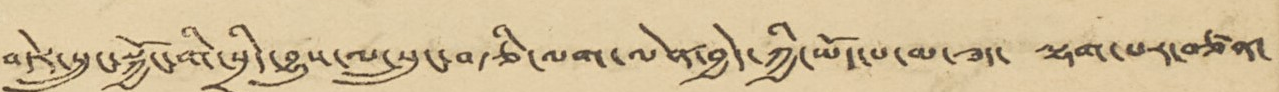བདེར་སྲུང་སྐྱོང་གི་སྲིད་བྱུས་ལ་སྲུང་བརྩི་ལག་ལེན་བྱེད་ཀྱི་ཡོད་པ་མ་ཟད་ ལྷག་པར་བཙན་
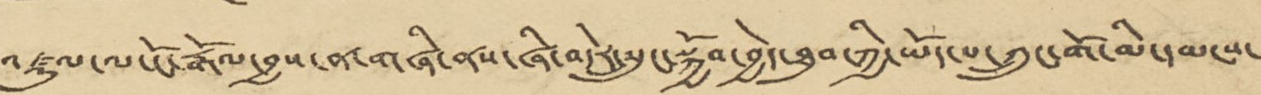འཛུལ་ལ་ངོ་རྒོལ་བྱས་ན་གཞི་ནས་ཞི་བདེར་སྲུང་སྐྱོབ་བྱེད་ཐུབ་ཀྱི་ཡོད་པ་ཀྲུང་གོ་མི་དམངས་
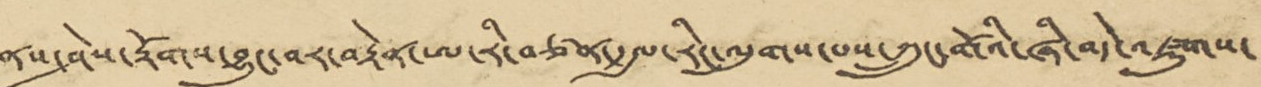ནས་ཤེས་རྟོགས་བྱུང་བར་བརྟེན་ཨ་རི་བཙན་རྒྱལ་རིང་ལུགས་པས་ཀྲུང་གོའི་ཞི་བདེ་འཛུགས་
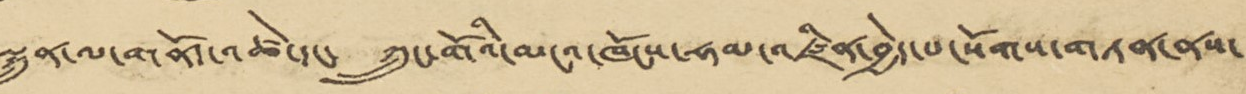སྐྲུན་ལ་གནོད་འཚེ་དང་ ཀྲུང་གོའི་མངའ་ཁོངས་ཧམ་འཛིན་བྱེད་པ་སོགས་གཏན་ནས་
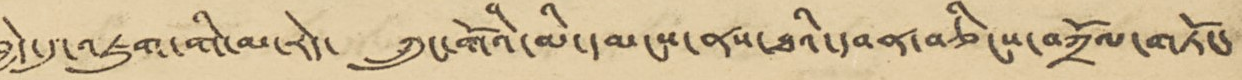བྱེད་དུ་འཇུག་གི་མ་རེད་ ཀྲུང་གོའི་མི་དམངས་ནས་ཐའི་དབན་བཅིངས་བཀྲོལ་གཏོང་
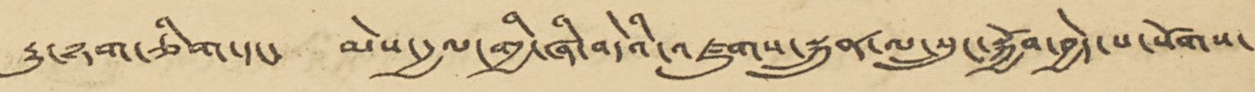རྒྱུ་ཉག་ཅིག་དང་ མེས་རྒྱལ་གྱི་ཞི་བདེའི་འཛུགས་སྐྲུན་ལ་སྲུང་སྐྱོབ་བྱེད་པ་སོགས་
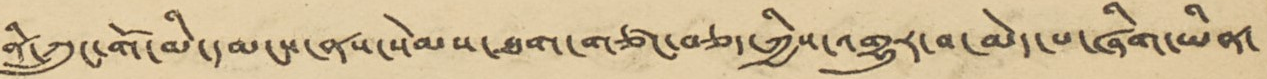ནི་ཀྲུང་གོ་མི་དམངས་ནས་སེམས་ཐག་གཙང་བཅད་ཀྱིས་འགྱུར་བ་མེད་པ་ཞིག་ཡིན་
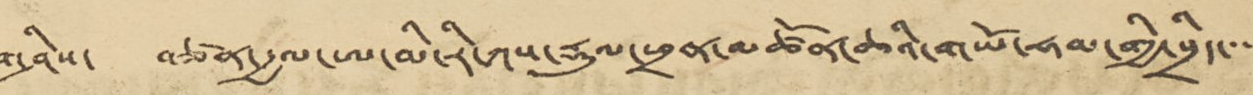གཤིས་ བཙན་རྒྱལ་ཨ་མི་རི་ཀས་རྡུལ་ཕྲན་མཚོན་ཆའི་གཡོ་ཧམ་གྱི་སྲིད་་་
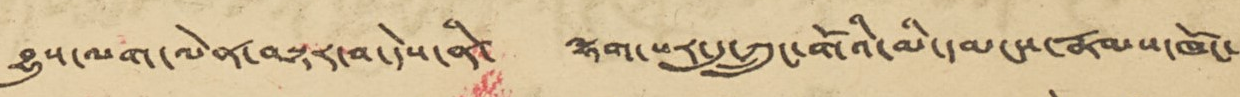བྱུས་ལག་ལེན་བསྟར་བ་དེས་ནི་ ལྷག་པར་དུ་ཀྲུང་གོའི་མི་དམངས་རྣམས་ཁོང་
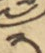༢
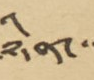ཉིན་་་
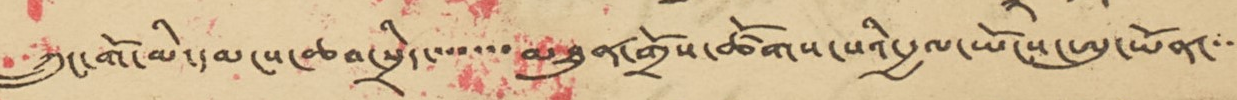ཀྲུང་གོ་མི་དམངས་ཆབ་སྲིད་་་་་་་མཐུན་གྲོས་ཚོགས་སའི་རྒྱལ་ཡོངས་ཨུ་ཡོན་་་་
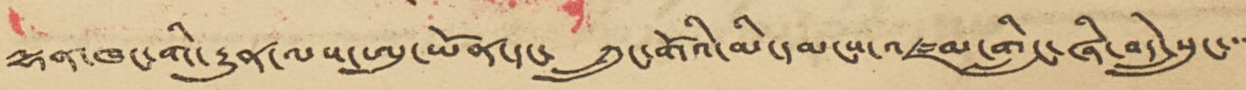ལྷན་ཁང་གི་རྒྱུན་ལས་ཨུ་ཡོན་དང་ ཀྲུང་གོའི་མི་དམངས་འཛམ་གླིང་ཞི་བདེ་སྲུང་་་་
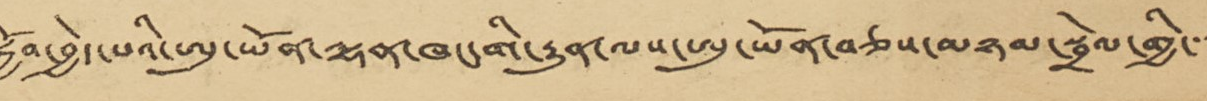སྐྱོབ་བྱེད་པའི་ཨུ་ཡོན་ལྷན་ཁང་གི་རྒྱུན་ལས་ཨུ་ཡོན་བཅས་མཉམ་སྦྲེལ་གྱི་་་་
